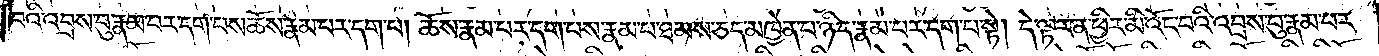བའི་འབྲས་བུ་རྣམ་པར་དག་པས་ཆོས་རྣམ་པར་དག་པ། ཆོས་རྣམ་པར་དག་པས་རྣམ་པ་ཐམས་ཅད་མཁྱེན་པ་ཉིད་རྣམ་པར་དག་པ་སྟེ། དེ་ལྟར་ན་ཕྱིར་མི་འོང་བའི་འབྲས་བུ་རྣམ་པར་
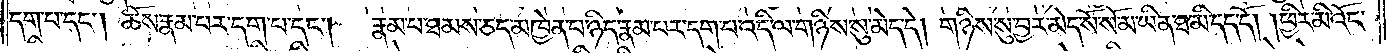དག་པ་དང༌། ཆོས་རྣམ་པར་དག་པ་དང༌། རྣམ་པ་ཐམས་ཅད་མཁྱེན་པ་ཉིད་རྣམ་པར་དག་པ་འདི་ལ་གཉིས་སུ་མེད་དེ། གཉིས་སུ་བྱར་མེད་སོ་སོ་མ་ཡིན་ཐ་མི་དད་དོ། །ཕྱིར་མི་འོང་
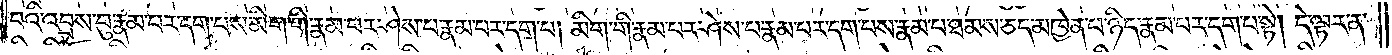བའི་འབྲས་བུ་རྣམ་པར་དག་པས་མིག་གི་རྣམ་པར་ཤེས་པ་རྣམ་པར་དག་པ། མིག་གི་རྣམ་པར་ཤེས་པ་རྣམ་པར་དག་པས་རྣམ་པ་ཐམས་ཅད་མཁྱེན་པ་ཉིད་རྣམ་པར་དག་པ་སྟེ། དེ་ལྟར་ན་
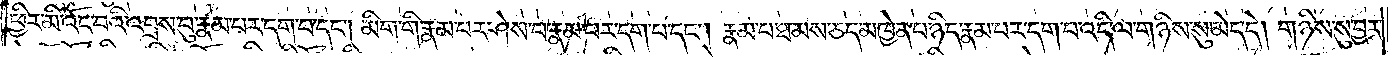ཕྱིར་མི་འོང་བའི་འབྲས་བུ་རྣམ་པར་དག་པ་དང༌། མིག་གི་རྣམ་པར་ཤེས་པ་རྣམ་པར་དག་པ་དང༌། རྣམ་པ་ཐམས་ཅད་མཁྱེན་པ་ཉིད་རྣམ་པར་དག་པ་འདི་ལ་གཉིས་སུ་མེད་དེ། གཉིས་སུ་བྱར་
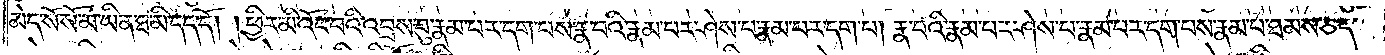མེད་སོ་སོ་མ་ཡིན་ཐ་མི་དད་དོ། །ཕྱིར་མི་འོང་བའི་འབྲས་བུ་རྣམ་པར་དག་པས་རྣ་བའི་རྣམ་པར་ཤེས་པ་རྣམ་པར་དག་པ། རྣ་བའི་རྣམ་པར་ཤེས་པ་རྣམ་པར་དག་པས་རྣམ་པ་ཐམས་ཅད་
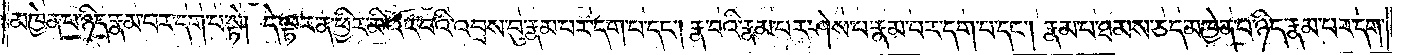མཁྱེན་པ་ཉིད་རྣམ་པར་དག་པ་སྟེ། དེ་ལྟར་ན་ཕྱིར་མི་འོང་བའི་འབྲས་བུ་རྣམ་པར་དག་པ་དང༌། རྣ་བའི་རྣམ་པར་ཤེས་པ་རྣམ་པར་དག་པ་དང༌། རྣམ་པ་ཐམས་ཅད་མཁྱེན་པ་ཉིད་རྣམ་པར་དག་
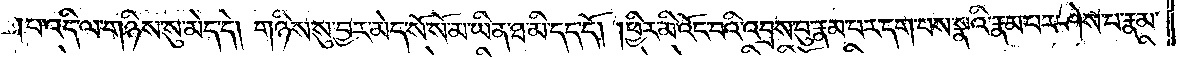པ་འདི་ལ་གཉིས་སུ་མེད་དེ། གཉིས་སུ་བྱར་མེད་སོ་སོ་མ་ཡིན་ཐ་མི་དད་དོ། །ཕྱིར་མི་འོང་བའི་འབྲས་བུ་རྣམ་པར་དག་པས་སྣའི་རྣམ་པར་ཤེས་པ་རྣམ་
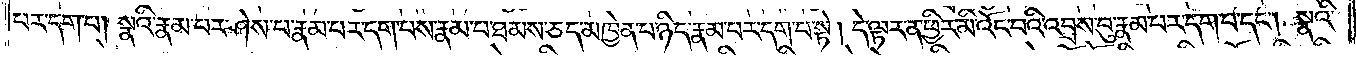པར་དག་པ། སྣའི་རྣམ་པར་ཤེས་པ་རྣམ་པར་དག་པས་རྣམ་པ་ཐམས་ཅད་མཁྱེན་པ་ཉིད་རྣམ་པར་དག་པ་སྟེ། དེ་ལྟར་ན་ཕྱིར་མི་འོང་བའི་འབྲས་བུ་རྣམ་པར་དག་པ་དང༌། སྣའི་
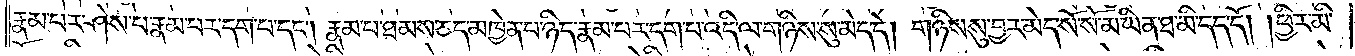རྣམ་པར་ཤེས་པ་རྣམ་པར་དག་པ་དང༌། རྣམ་པ་ཐམས་ཅད་མཁྱེན་པ་ཉིད་རྣམ་པར་དག་པ་འདི་ལ་གཉིས་སུ་མེད་དེ། གཉིས་སུ་བྱར་མེད་སོ་སོ་མ་ཡིན་ཐ་མི་དད་དོ། །ཕྱིར་མི་
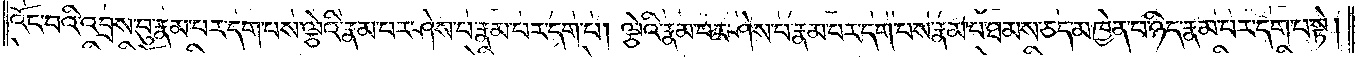འོང་བའི་འབྲས་བུ་རྣམ་པར་དག་པས་ལྕེའི་རྣམ་པར་ཤེས་པ་རྣམ་པར་དག་པ། ལྕེའི་རྣམ་པར་ཤེས་པ་རྣམ་པར་དག་པས་རྣམ་པ་ཐམས་ཅད་མཁྱེན་པ་ཉིད་རྣམ་པར་དག་པ་སྟེ།
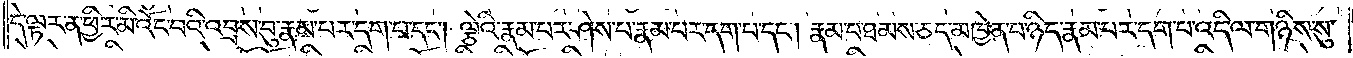དེ་ལྟར་ན་ཕྱིར་མི་འོང་བའི་འབྲས་བུ་རྣམ་པར་དག་པ་དང༌། ལྕེའི་རྣམ་པར་ཤེས་པ་རྣམ་པར་དག་པ་དང༌། རྣམ་པ་ཐམས་ཅད་མཁྱེན་པ་ཉིད་རྣམ་པར་དག་པ་འདི་ལ་གཉིས་སུ་
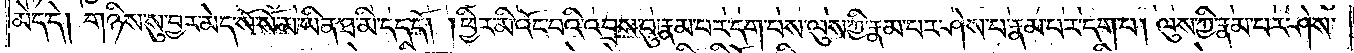མེད་དེ། གཉིས་སུ་བྱར་མེད་སོ་སོ་མ་ཡིན་ཐ་མི་དད་དོ། །ཕྱིར་མི་འོང་བའི་འབྲས་བུ་རྣམ་པར་དག་པས་ལུས་ཀྱི་རྣམ་པར་ཤེས་པ་རྣམ་པར་དག་པ། ལུས་ཀྱི་རྣམ་པར་ཤེས་
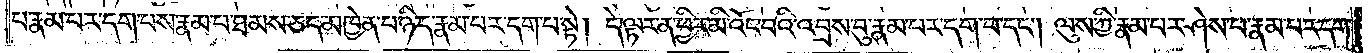པ་རྣམ་པར་དག་པས་རྣམ་པ་ཐམས་ཅད་མཁྱེན་པ་ཉིད་རྣམ་པར་དག་པ་སྟེ། དེ་ལྟར་ན་ཕྱིར་མི་འོང་བའི་འབྲས་བུ་རྣམ་པར་དག་པ་དང༌། ལུས་ཀྱི་རྣམ་པར་ཤེས་པ་རྣམ་པར་དག་
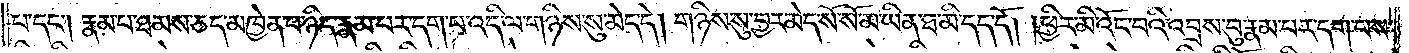པ་དང༌། རྣམ་པ་ཐམས་ཅད་མཁྱེན་པ་ཉིད་རྣམ་པར་དག་པ་འདི་ལ་གཉིས་སུ་མེད་དེ། གཉིས་སུ་བྱར་མེད་སོ་སོ་མ་ཡིན་ཐ་མི་དད་དོ། །ཕྱིར་མི་འོང་བའི་འབྲས་བུ་རྣམ་པར་དག་པས་
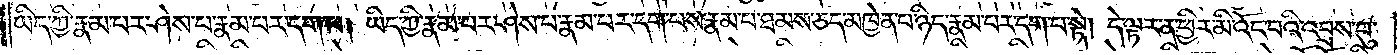ཡིད་ཀྱི་རྣམ་པར་ཤེས་པ་རྣམ་པར་དག་པ། ཡིད་ཀྱི་རྣམ་པར་ཤེས་པ་རྣམ་པར་དག་པས་རྣམ་པ་ཐམས་ཅད་མཁྱེན་པ་ཉིད་རྣམ་པར་དག་པ་སྟེ། དེ་ལྟར་ན་ཕྱིར་མི་འོང་བའི་འབྲས་བུ་
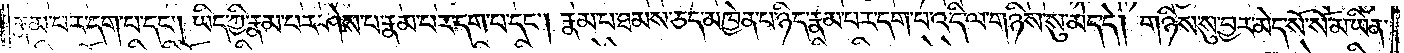རྣམ་པར་དག་པ་དང༌། ཡིད་ཀྱི་རྣམ་པར་ཤེས་པ་རྣམ་པར་དག་པ་དང༌། རྣམ་པ་ཐམས་ཅད་མཁྱེན་པ་ཉིད་རྣམ་པར་དག་པ་འདི་ལ་གཉིས་སུ་མེད་དེ། གཉིས་སུ་བྱར་མེད་སོ་སོ་མ་ཡིན་
